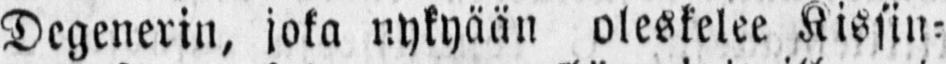Degenerin, joka nykyään oleskelee Kissin-
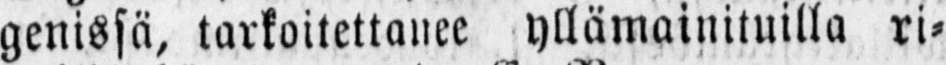genissä, tarkoitettanee yllämainituilla ri-
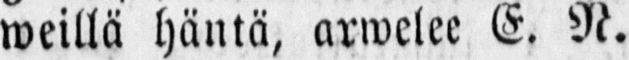weillä häntä, arwelee E. N.
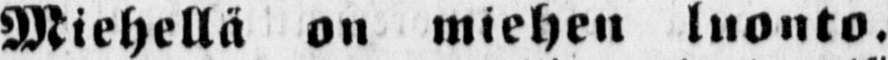Miehellä on miehen luonto.
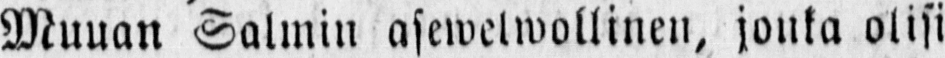Muuan Salmin asewelwollinen, jonka olisi
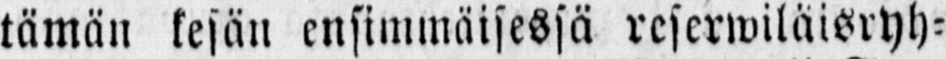tämän kesän ensimmäisessä reserwiläisryh-
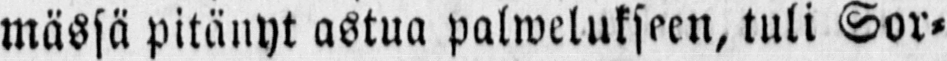mässä pitänyt astua palwelukseen, tuli Sor-
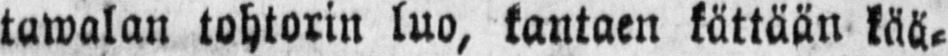tawalan tohtorin luo, kantaen kättään kää-
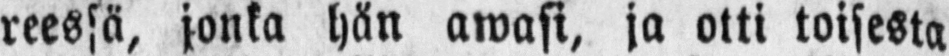reessä, jonka hän awasi, ja otti toisesta
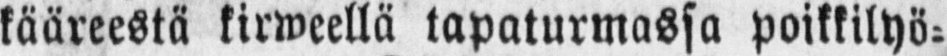kääreestä kirweellä tapaturmassa poikkilyö-
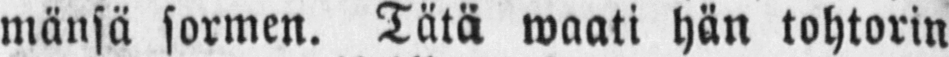mänsä sormen. Tätä waati hän tohtorin
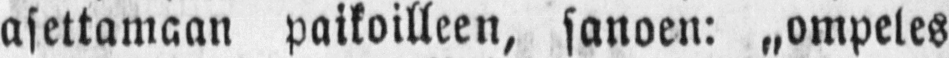asettamaan paikoilleen, sanoen: „ompeles
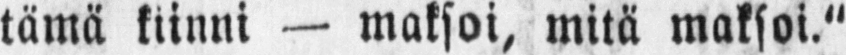tämä kiinni — maksoi, mitä maksoi."
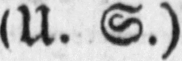(U. S.)
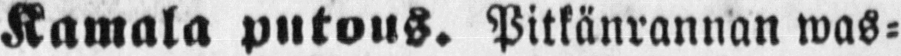Kamala putous. Pitkänrannan was-
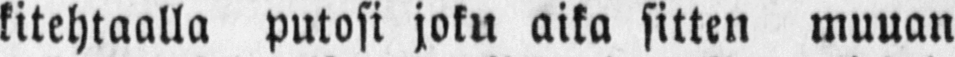kitehtaalla putosi joku aika sitten muuan
